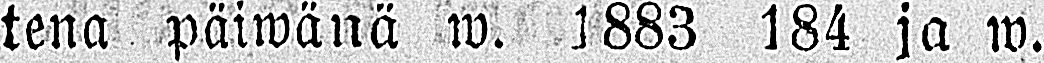tena päiwänä w. 1883 184 ja w.
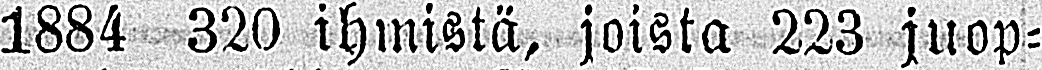1884 320 ihmistä, joista 223 juop-
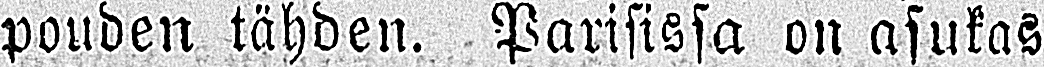pouden tähden. Parisissa on asukas
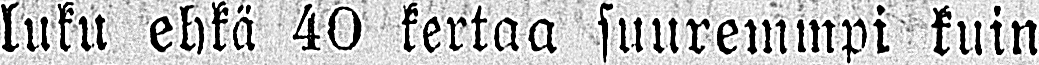luku ehkä 40 kertaa suuremmpi kuin
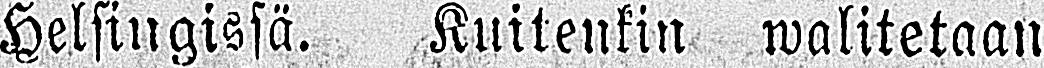Helsingissä. Kuitenkin walitetaan
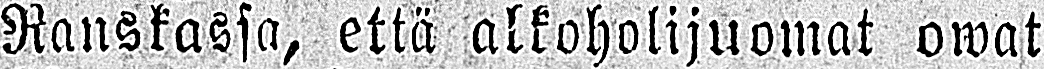Ranskassa, että alkoholijuomat owat
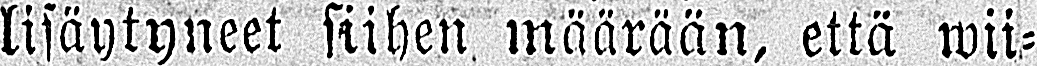lisäytyneet siihen määrään, että wii-
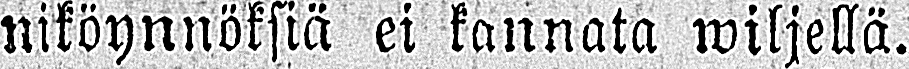niköynnöksia ei kannata wiljellä.
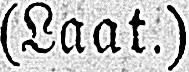(Laat.)
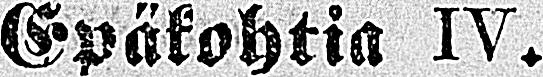Epäkohtia IV.
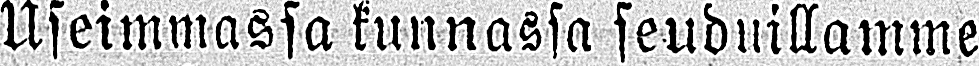Useimmassa kunnassa seuduillamme
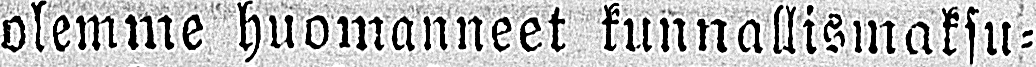olemme huomanneet kunnallismaksu -
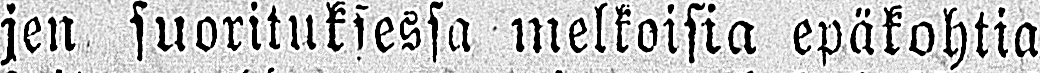jen suorituksessa melkoisia epäkohtia
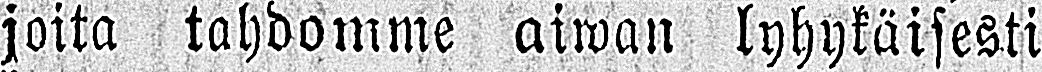joita tahdomme aiwan lyhykäisesti
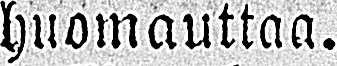huomauttaa.
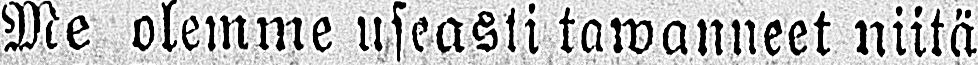Me olemme useasti tawanneet niitä
